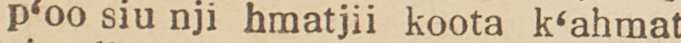p'oo siu pji hmatjii koota k'ahmat
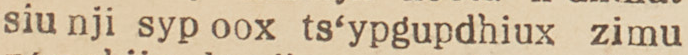siu nji syp oox ts'ypgupdhiux zimu
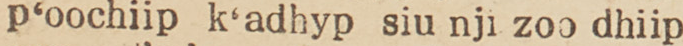p'oochiip k'adhyp siu nji zoo dhiip
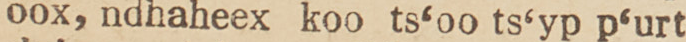oox, ndhaheex koo ts'oo ts'yp p'urt
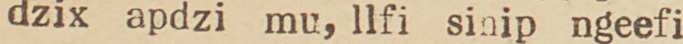dzix apdzi mu, llfi sinip ngeefi
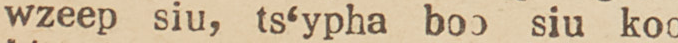wzeep siu, ts'ypha boo siu koo
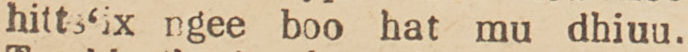hitts'ix ngee boo hat mu dhiuu.
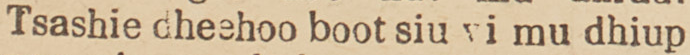Tsashie dheehoo boot siu vi mu dhiup
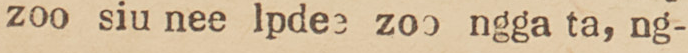zoo siu nee Ipdee zoo ngga ta, ng-
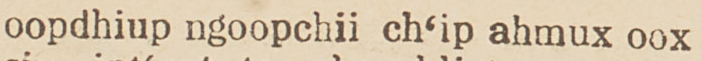oopdhiup ngoopchii ch'ip ahmux oox
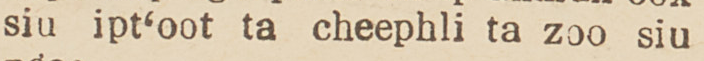siu ipt'oot ta cheephli ta zoo siu
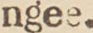ngee.
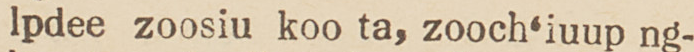Ipdee zoosiu koo ta, zooch'iuup ng-
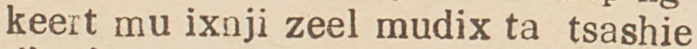keert mu ixnji zeel mudix ta tsashie
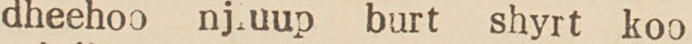dheehoo njiuup burt shyrt koo
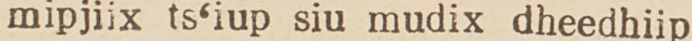mipjiix ts'iup siu mudix dheedhiip
